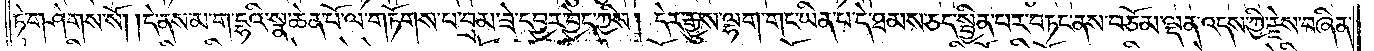ཏེ་གཤེགས་སོ། །དེ་ནས་མ་ག་དྷའི་སྣ་ཆེན་པོ་ལ་གཏོགས་པ་བྲམ་ཟེ་དབྱར་བྱེད་ཀྱིས། དེར་རྒྱུས་ལྷག་གང་ཡིན་པ་དེ་ཐམས་ཅད་སྦྱིན་པར་བཏང་ནས་བཅོམ་ལྡན་འདས་ཀྱི་རྗེས་བཞིན་
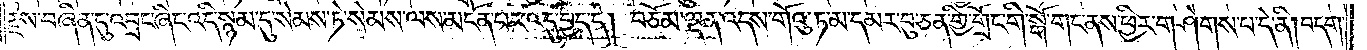རྗེས་བཞིན་དུ་འབྲང་ཞིང་འདི་སྙམ་དུ་སེམས་ཏེ་སེམས་ལས་མངོན་པར་འདུ་བྱེད་དེ། བཅོམ་ལྡན་འདས་གོའུ་ཏ་མ་དམར་བུ་ཅན་གྱི་གྲོང་གི་སྒོ་གང་ནས་ཕྱིར་གཤེགས་པ་དེ་ནི། བདག་
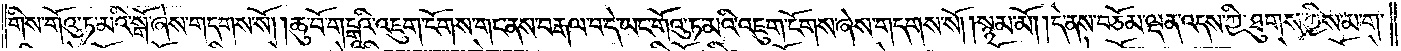གིས་གོའུ་ཏ་མའི་སྒོ་ཞེས་གདགས་སོ། །ཆུ་བོ་གངྒཱའི་འཇུག་ངོགས་གང་ནས་བརྒལ་བ་དེ་ཡང་གོའུ་ཏ་མའི་འཇུག་ངོགས་ཞེས་གདགས་སོ། །སྙམ་མོ། །དེ་ནས་བཅོམ་ལྡན་འདས་ཀྱི་ཐུགས་ཀྱིས་མ་ག་
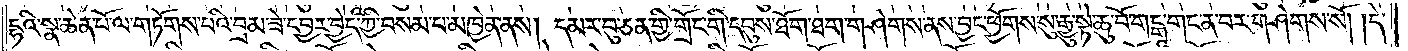དྷའི་སྣ་ཆེན་པོ་ལ་གཏོགས་པའི་བྲམ་ཟེ་དབྱར་བྱེད་ཀྱི་བསམ་པ་མཁྱེན་ནས། དམར་བུ་ཅན་གྱི་གྲོང་གི་དབུས་ཐོག་ཐག་གཤེགས་ནས་བྱང་ཕྱོགས་སུ་རྒྱུ་སྟེ་ཆུ་བོ་གངྒཱ་གང་ན་བར་གཤེགས་སོ། །དེ་
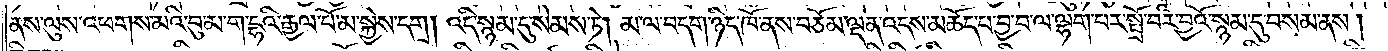ནས་ལུས་འཕགས་མའི་བུ་མ་ག་དྷའི་རྒྱལ་པོ་མ་སྐྱེས་དགྲ། འདི་སྙམ་དུ་སེམས་ཏེ། མ་ལ་བདག་ཉིད་ཁོ་ནས་བཅོམ་ལྡན་འདས་མཆོད་པ་བྱ་བ་ལ་ལྷག་པར་སྤྲོ་བར་བྱའོ་སྙམ་དུ་བསམ་ནས།
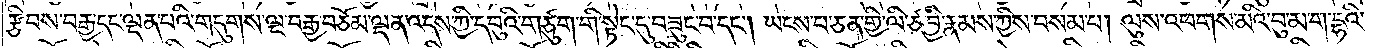རྩིབས་བརྒྱ་དང་ལྡན་པའི་གདུགས་ལྔ་བརྒྱ་བཅོམ་ལྡན་འདས་ཀྱི་དབུའི་གཙུག་གི་སྟེང་དུ་བཟུང་བ་དང༌། ཡངས་པ་ཅན་གྱི་ལི་ཙ་བྱི་རྣམས་ཀྱིས་བསམ་པ། ལུས་འཕགས་མའི་བུ་མ་ག་དྷའི་
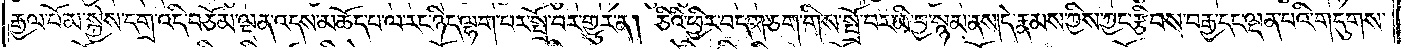རྒྱལ་པོ་མ་སྐྱེས་དགྲ་འདི་བཅོམ་ལྡན་འདས་མཆོད་པ་ལ་རང་ཉིད་ལྷག་པར་སྤྲོ་བར་གྱུར་ན། ཅིའི་ཕྱིར་བདག་ཅག་གིས་སྤྲོ་བར་མི་བྱ་སྙམ་ནས། དེ་རྣམས་ཀྱིས་ཀྱང་རྩིབས་བརྒྱ་དང་ལྡན་པའི་གདུགས་
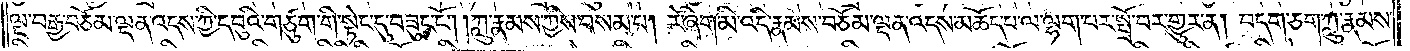ལྔ་བརྒྱ་བཅོམ་ལྡན་འདས་ཀྱི་དབུའི་གཙུག་གི་སྟེང་དུ་བཟུང་ངོ༌། །ཀླུ་རྣམས་ཀྱིས་བསམ་པ། རེ་ཞིག་མི་འདི་རྣམས་བཅོམ་ལྡན་འདས་མཆོད་པ་ལ་ལྷག་པར་སྤྲོ་བར་གྱུར་ན། བདག་ཅག་ཀླུ་རྣམས་
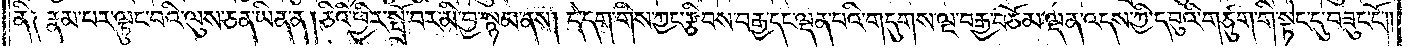ནི༏  རྣམ་པར་ལྟུང་བའི་ལུས་ཅན་ཡིན་ན། ཅིའི་ཕྱིར་སྤྲོ་བར་མི་བྱ་སྙམ་ནས། དེ་དག་གིས་ཀྱང་རྩིབས་བརྒྱ་དང་ལྡན་པའི་གདུགས་ལྔ་བརྒྱ་བཅོམ་ལྡན་འདས་ཀྱི་དབུའི་གཙུག་གི་སྟེང་དུ་བཟུང་ངོ༌།
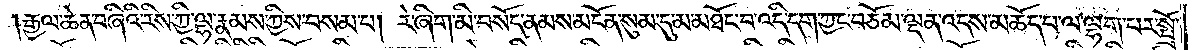རྒྱལ་ཆེན་བཞིའི་རིས་ཀྱི་ལྷ་རྣམས་ཀྱིས་བསམ་པ། རེ་ཞིག་མི་བསོད་ནམས་མངོན་སུམ་དུ་མ་མཐོང་བ་འདི་དག་ཀྱང་བཅོམ་ལྡན་འདས་མཆོད་པ་ལ་ལྷག་པར་སྤྲོ་
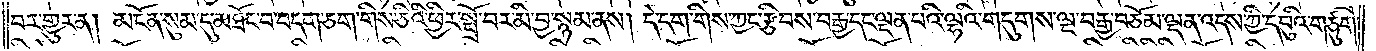བར་གྱུར་ན། མངོན་སུམ་དུ་མཐོང་བ་བདག་ཅག་གིས་ཅིའི་ཕྱིར་སྤྲོ་བར་མི་བྱ་སྙམ་ནས། དེ་དག་གིས་ཀྱང་རྩིབས་བརྒྱ་དང་ལྡན་པའི་ལྷའི་གདུགས་ལྔ་བརྒྱ་བཅོམ་ལྡན་འདས་ཀྱི་དབུའི་གཙུག་
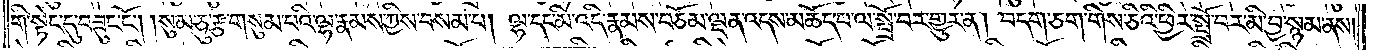གི་སྟེང་དུ་བཟུང་ངོ༌། །སུམ་ཅུ་རྩ་གསུམ་པའི་ལྷ་རྣམས་ཀྱིས་བསམ་པ། ལྷ་དང་མི་འདི་རྣམས་བཅོམ་ལྡན་འདས་མཆོད་པ་ལ་སྤྲོ་བར་གྱུར་ན། བདག་ཅག་གིས་ཅིའི་ཕྱིར་སྤྲོ་བར་མི་བྱ་སྙམ་ནས།
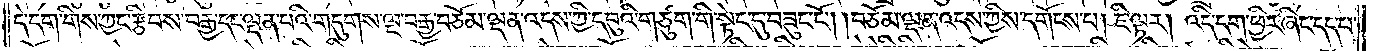དེ་དག་གིས་ཀྱང་རྩིབས་བརྒྱ་དང་ལྡན་པའི་གདུགས་ལྔ་བརྒྱ་བཅོམ་ལྡན་འདས་ཀྱི་དབུའི་གཙུག་གི་སྟེང་དུ་བཟུང་ངོ༌། །བཅོམ་ལྡན་འདས་ཀྱིས་དགོངས་པ། ཇི་ལྟར། འདི་དག་ཕྱིར་ཞིང་དད་པ་
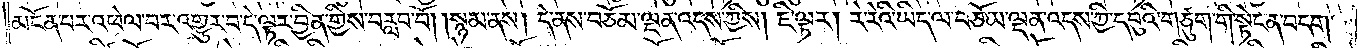མངོན་པར་འཕེལ་བར་འགྱུར་བ་དེ་ལྟར་བྱིན་གྱིས་བརླབ་བོ། །སྙམ་ནས། དེ་ནས་བཅོམ་ལྡན་འདས་ཀྱིས། ཇི་ལྟར། རེ་རེའི་ཡིད་ལ་བཅོམ་ལྡན་འདས་ཀྱི་དབུའི་གཙུག་གི་སྟེང་ན་བདག་
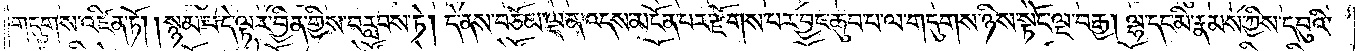གདུགས་འཛིན་ཏོ། །སྙམ་པ་དེ་ལྟར་བྱིན་གྱིས་བརླབས་ཏེ། དེ་ནས་བཅོམ་ལྡན་འདས་མངོན་པར་རྫོགས་པར་བྱང་ཆུབ་པ་ལ་གདུགས་ཉིས་སྟོང་ལྔ་བརྒྱ། ལྷ་དང་མི་རྣམས་ཀྱིས་དབུའི་
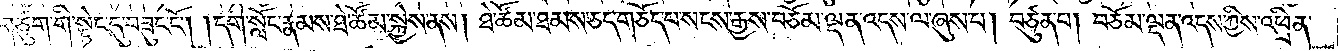གཙུག་གི་སྟེང་དུ་བཟུང་ངོ༌། །དགེ་སློང་རྣམས་ཐེ་ཚོམ་སྐྱེས་ནས། ཐེ་ཚོམ་ཐམས་ཅད་གཅོད་པ་སངས་རྒྱས་བཅོམ་ལྡན་འདས་ལ་ཞུས་པ། བཙུན་པ། བཅོམ་ལྡན་འདས་ཀྱིས་འཕྲིན་
